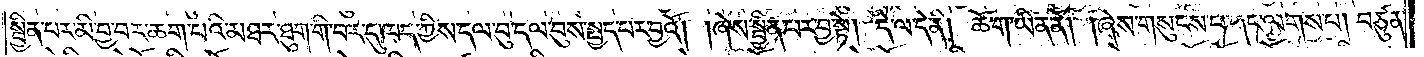སྦྱིན་པར་མི་བྱ་བར་ཆག་པའི་མཐར་ཐུག་གི་བར་དུ་ཁད་ཀྱིས་དལ་བུ་དལ་བུས་སྤྱད་པར་བྱའོ། །ཞེས་སྦྱིན་པར་བྱ་སྟེ། དེ་ལ་དེ་ནི། ཆོ་ག་ཡིན་ནོ། །ཞེས་གསུངས་པ་གང་ལགས་པ། བཙུན་
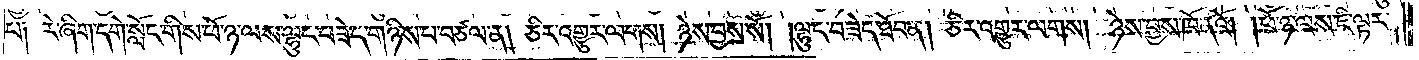པ༑ རེ་ཞིག་དགེ་སློང་གིས་ཕོ་ཉ་ལས་ལྷུང་བཟེད་གཉིས་པ་བཙལ་ན། ཅིར་འགྱུར་ལགས། ཉེས་བྱས་སོ། །ལྷུང་བཟེད་ཐོབ་ན། ཅིར་འགྱུར་ལགས། ཉེས་བྱས་ཁོ་ནའོ། །ཕོ་ཉ་ལས་ཇི་ལྟར་
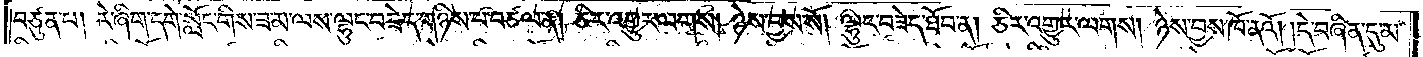བཙུན་པ། རེ་ཞིག་དགེ་སློང་གིས་ཟ་མ་ལས་ལྷུང་བཟེད་གཉིས་པ་བཙལ་ན། ཅིར་འགྱུར་ལགས། ཉེས་བྱས་སོ། །ལྷུང་བཟེད་ཐོབ་ན། ཅིར་འགྱུར་ལགས། ཉེས་བྱས་ཁོ་ནའོ། །དེ་བཞིན་དུ་མ་
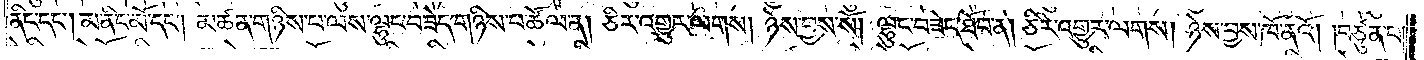ནིང་དང༌། མ་ནིང་མོ་དང༌། མཚན་གཉིས་པ་ལས་ལྷུང་བཟེད་གཉིས་པ་ཚོལ་ན། ཅིར་འགྱུར་ལགས། ཉེས་བྱས་སོ། །ལྷུང་བཟེད་ཐོབ་ན། ཅིར་འགྱུར་ལགས། ཉེས་བྱས་ཁོ་ནའོ། །བཙུན་པ།
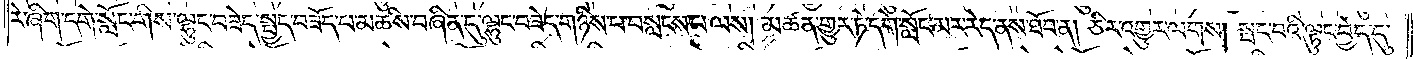རེ་ཞིག་དགེ་སློང་གིས་ལྷུང་བཟེད་སྤྱད་བཟོད་པ་མཆིས་བཞིན་དུ་ལྷུང་བཟེད་གཉིས་པ་བསླངས་པ་ལས། མཚན་གྱུར་ཏེ་དགེ་སློང་མར་རེད་ནས་ཐོབ་ན། ཅིར་འགྱུར་ལགས། སྤང་བའི་ལྟུང་བྱེད་དུ་
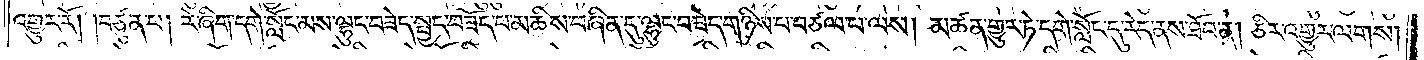འགྱུར་རོ། །བཙུན་པ། རེ་ཞིག་དགེ་སློང་མས་ལྷུང་བཟེད་སྤྱད་བཟོད་པ་མཆིས་བཞིན་དུ་ལྷུང་བཟེད་གཉིས་པ་བཙལ་པ་ལས། མཚན་གྱུར་ཏེ་དགེ་སློང་དུ་རེད་ནས་ཐོབ་ན། ཅིར་འགྱུར་ལགས།
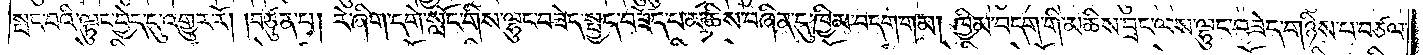སྤང་བའི་ལྟུང་བྱེད་དུ་འགྱུར་རོ། །བཙུན་པ། རེ་ཞིག་དགེ་སློང་གིས་ལྷུང་བཟེད་སྤྱད་བཟོད་པ་མཆིས་བཞིན་དུ་ཁྱིམ་བདག་གམ། ཁྱིམ་བདག་གི་མཆིས་བྲང་ལས་ལྷུང་བཟེད་གཉིས་པ་བཙལ་
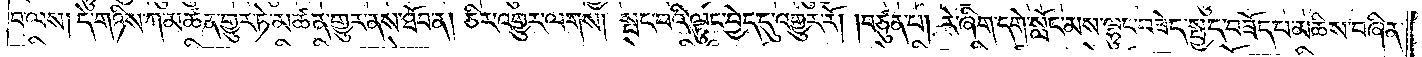བ་ལས། དེ་གཉིས་ཀ་མཚན་གྱུར་ཏེ་མཚན་གྱུར་ནས་ཐོབ་ན། ཅིར་འགྱུར་ལགས། སྤང་བའི་ལྟུང་བྱེད་དུ་འགྱུར་རོ། །བཙུན་པ། རེ་ཞིག་དགེ་སློང་མས་ལྷུང་བཟེད་སྤྱད་བཟོད་པ་མཆིས་བཞིན་
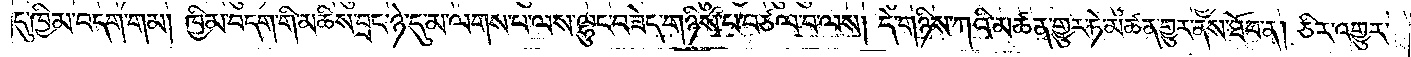དུ་ཁྱིམ་བདག་གམ། ཁྱིམ་བདག་གི་མཆིས་བྲང་ཉེ་དུ་མ་ལགས་པ་ལས་ལྷུང་བཟེད་གཉིས་པ་བཙལ་བ་ལས། དེ་གཉིས་ཀའི་མཚན་གྱུར་ཏེ་མཚན་གྱུར་ནས་ཐོབ་ན། ཅིར་འགྱུར་
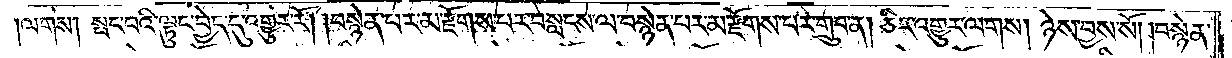ལགས། སྤང་བའི་ལྟུང་བྱེད་དུ་འགྱུར་རོ། །བསྙེན་པར་མ་རྫོགས་པར་བསླངས་ལ་བསྙེན་པར་མ་རྫོགས་པར་གྲུབ་ན། ཅིར་འགྱུར་ལགས། ཉེས་བྱས་སོ། །བསྙེན་
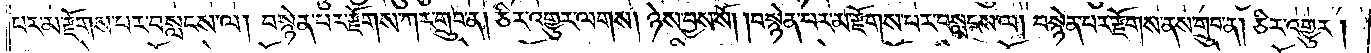པར་མ་རྫོགས་པར་བསླངས་ལ། བསྙེན་པར་རྫོགས་ཀར་གྲུབ་ན། ཅིར་འགྱུར་ལགས། ཉེས་བྱས་སོ། །བསྙེན་པར་མ་རྫོགས་པར་བསླངས་ལ། བསྙེན་པར་རྫོགས་ནས་གྲུབ་ན། ཅིར་འགྱུར།
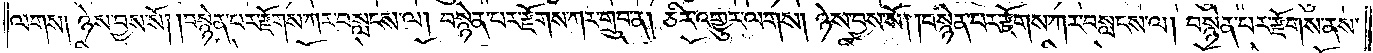ལགས། ཉེས་བྱས་སོ། །བསྙེན་པར་རྫོགས་ཀར་བསླངས་ལ། བསྙེན་པར་རྫོགས་ཀར་གྲུབ་ན། ཅིར་འགྱུར་ལགས། ཉེས་བྱས་སོ། །བསྙེན་པར་རྫོགས་ཀར་བསླངས་ལ། བསྙེན་པར་རྫོགས་ནས་
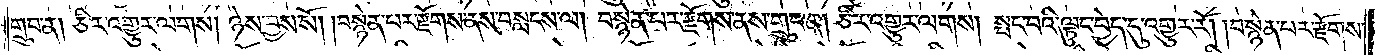གྲུབ་ན། ཅིར་འགྱུར་ལགས། ཉེས་བྱས་སོ། །བསྙེན་པར་རྫོགས་ནས་བསླངས་ལ། བསྙེན་པར་རྫོགས་ནས་གྲུབ་ན། ཅིར་འགྱུར་ལགས། སྤང་བའི་ལྟུང་བྱེད་དུ་འགྱུར་རོ། །བསྙེན་པར་རྫོགས་
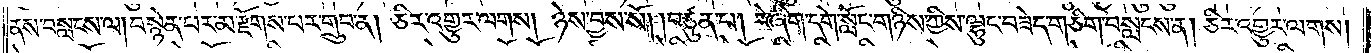ནས་བསླངས་ལ། བསྙེན་པར་མ་རྫོགས་པར་གྲུབ་ན། ཅིར་འགྱུར་ལགས། ཉེས་བྱས་སོ། །བཙུན་པ། རེ་ཞིག་དགེ་སློང་གཉིས་ཀྱིས་ལྷུང་བཟེད་གཅིག་བསླངས་ན། ཅིར་འགྱུར་ལགས།
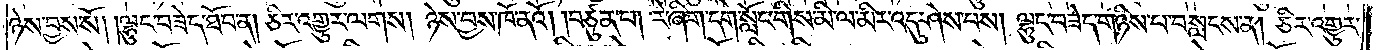ཉེས་བྱས་སོ། །ལྷུང་བཟེད་ཐོབ་ན། ཅིར་འགྱུར་ལགས། ཉེས་བྱས་ཁོ་ནའོ། །བཙུན་པ། རེ་ཞིག་དགེ་སློང་གིས་མི་ལ་མིར་འདུ་ཤེས་པས། ལྷུང་བཟེད་གཉིས་པ་བསླངས་ན། ཅིར་འགྱུར་
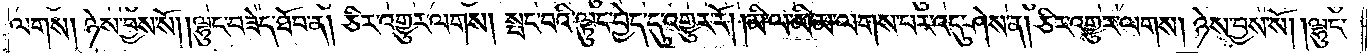ལགས། ཉེས་བྱས་སོ། །ལྷུང་བཟེད་ཐོབ་ན། ཅིར་འགྱུར་ལགས། སྤང་བའི་ལྟུང་བྱེད་དུ་འགྱུར་རོ། །མི་ལ་མི་མ་ལགས་པར་འདུ་ཤེས་ན། ཅིར་འགྱུར་ལགས། ཉེས་བྱས་སོ། །ལྷུང་
